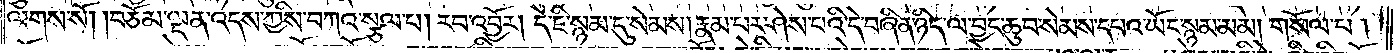ལགས་སོ། །བཅོམ་ལྡན་འདས་ཀྱིས་བཀའ་སྩལ་པ། རབ་འབྱོར། དེ་ཇི་སྙམ་དུ་སེམས། རྣམ་པར་ཤེས་པའི་དེ་བཞིན་ཉིད་ལ་བྱང་ཆུབ་སེམས་དཔའ་ཡོད་སྙམ་མམ། གསོལ་པ།
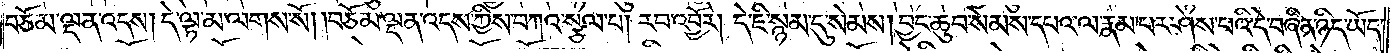བཅོམ་ལྡན་འདས། དེ་ལྟ་མ་ལགས་སོ། །བཅོམ་ལྡན་འདས་ཀྱིས་བཀའ་སྩལ་པ། རབ་འབྱོར། དེ་ཇི་སྙམ་དུ་སེམས། བྱང་ཆུབ་སེམས་དཔའ་ལ་རྣམ་པར་ཤེས་པའི་དེ་བཞིན་ཉིད་ཡོད་
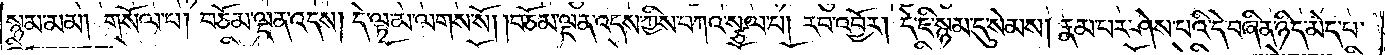སྙམ་མམ། གསོལ་པ། བཅོམ་ལྡན་འདས། དེ་ལྟ་མ་ལགས་སོ། །བཅོམ་ལྡན་འདས་ཀྱིས་བཀའ་སྩལ་པ། རབ་འབྱོར། དེ་ཇི་སྙམ་དུ་སེམས། རྣམ་པར་ཤེས་པའི་དེ་བཞིན་ཉིད་མེད་པ་
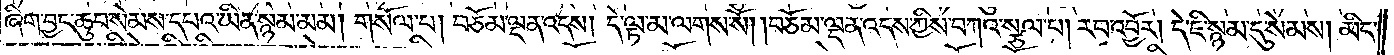ཞིག་བྱང་ཆུབ་སེམས་དཔའ་ཡིན་སྙམ་མམ། གསོལ་པ། བཅོམ་ལྡན་འདས། དེ་ལྟ་མ་ལགས་སོ། །བཅོམ་ལྡན་འདས་ཀྱིས་བཀའ་སྩལ་པ། རབ་འབྱོར། དེ་ཇི་སྙམ་དུ་སེམས། མིང་
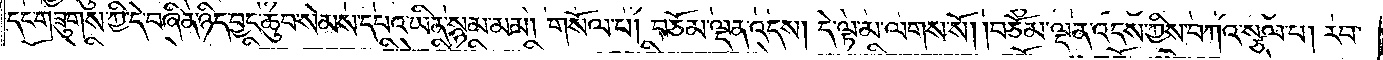དང་གཟུགས་ཀྱི་དེ་བཞིན་ཉིད་བྱང་ཆུབ་སེམས་དཔའ་ཡིན་སྙམ་མམ། གསོལ་པ། བཅོམ་ལྡན་འདས། དེ་ལྟ་མ་ལགས་སོ། །བཅོམ་ལྡན་འདས་ཀྱིས་བཀའ་སྩལ་པ། རབ་
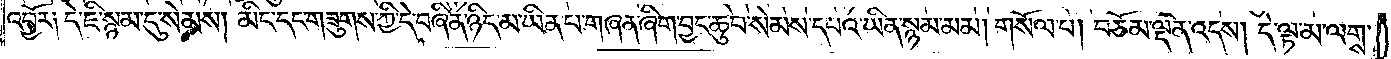འབྱོར༑ དེ་ཇི་སྙམ་དུ་སེམས། མིང་དང་གཟུགས་ཀྱི་དེ་བཞིན་ཉིད་མ་ཡིན་པ་གཞན་ཞིག་བྱང་ཆུབ་སེམས་དཔའ་ཡིན་སྙམ་མམ། གསོལ་པ། བཅོམ་ལྡན་འདས། དེ་ལྟ་མ་ལགས་
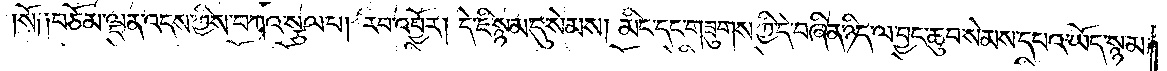སོ༑ ༑བཅོམ་ལྡན་འདས་ཀྱིས་བཀའ་སྩལ་པ། རབ་འབྱོར། དེ་ཇི་སྙམ་དུ་སེམས། མིང་དང་གཟུགས་ཀྱི་དེ་བཞིན་ཉིད་ལ་བྱང་ཆུབ་སེམས་དཔའ་ཡོད་སྙམ་
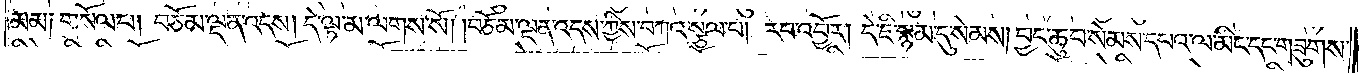མམ༑ གསོལ་པ། བཅོམ་ལྡན་འདས། དེ་ལྟ་མ་ལགས་སོ། །བཅོམ་ལྡན་འདས་ཀྱིས་བཀའ་སྩལ་པ། རབ་འབྱོར། དེ་ཇི་སྙམ་དུ་སེམས། བྱང་ཆུབ་སེམས་དཔའ་ལ་མིང་དང་གཟུགས་
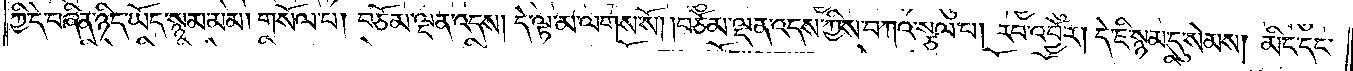ཀྱི་དེ་བཞིན་ཉིད་ཡོད་སྙམ་མམ། གསོལ་པ། བཅོམ་ལྡན་འདས། དེ་ལྟ་མ་ལགས་སོ། །བཅོམ་ལྡན་འདས་ཀྱིས་བཀའ་སྩལ་པ། རབ་འབྱོར། དེ་ཇི་སྙམ་དུ་སེམས། མིང་དང་
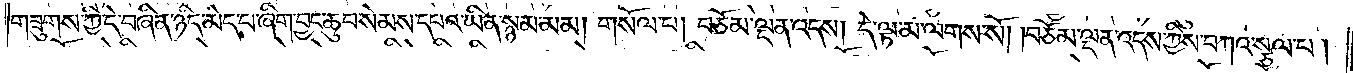གཟུགས་ཀྱི་དེ་བཞིན་ཉིད་མེད་པ་ཞིག་བྱང་ཆུབ་སེམས་དཔའ་ཡིན་སྙམ་མམ། གསོལ་པ། བཅོམ་ལྡན་འདས། དེ་ལྟ་མ་ལགས་སོ། །བཅོམ་ལྡན་འདས་ཀྱིས་བཀའ་སྩལ་པ།
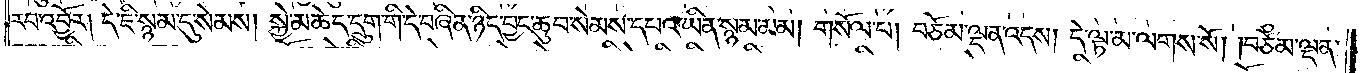རབ་འབྱོར། དེ་ཇི་སྙམ་དུ་སེམས། སྐྱེ་མཆེད་དྲུག་གི་དེ་བཞིན་ཉིད་བྱང་ཆུབ་སེམས་དཔའ་ཡིན་སྙམ་མམ། གསོལ་པ། བཅོམ་ལྡན་འདས། དེ་ལྟ་མ་ལགས་སོ། །བཅོམ་ལྡན་
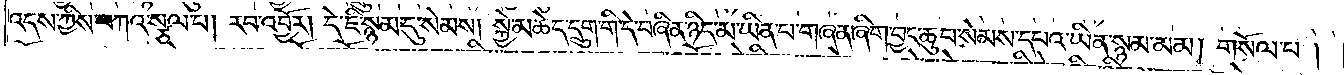འདས་ཀྱིས་བཀའ་སྩལ་པ། རབ་འབྱོར། དེ་ཇི་སྙམ་དུ་སེམས། སྐྱེ་མཆེད་དྲུག་གི་དེ་བཞིན་ཉིད་མ་ཡིན་པ་གཞན་ཞིག་བྱང་ཆུབ་སེམས་དཔའ་ཡིན་སྙམ་མམ། གསོལ་པ།
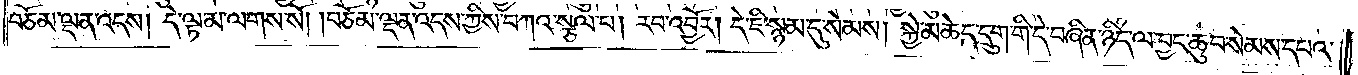བཅོམ་ལྡན་འདས། དེ་ལྟ་མ་ལགས་སོ། །བཅོམ་ལྡན་འདས་ཀྱིས་བཀའ་སྩལ་པ། རབ་འབྱོར། དེ་ཇི་སྙམ་དུ་སེམས། སྐྱེ་མཆེད་དྲུག་གི་དེ་བཞིན་ཉིད་ལ་བྱང་ཆུབ་སེམས་དཔའ་
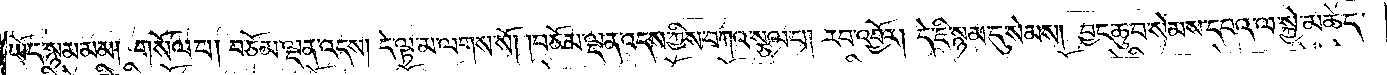ཡོད་སྙམ་མམ། གསོལ་པ། བཅོམ་ལྡན་འདས། དེ་ལྟ་མ་ལགས་སོ། །བཅོམ་ལྡན་འདས་ཀྱིས་བཀའ་སྩལ་པ། རབ་འབྱོར། དེ་ཇི་སྙམ་དུ་སེམས། བྱང་ཆུབ་སེམས་དཔའ་ལ་སྐྱེ་མཆེད་
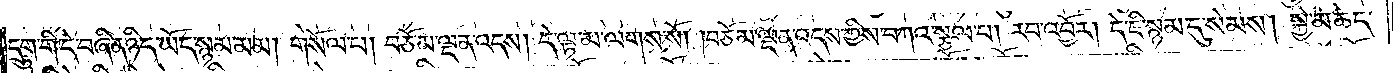དྲུག་གི་དེ་བཞིན་ཉིད་ཡོད་སྙམ་མམ། གསོལ་པ། བཅོམ་ལྡན་འདས། དེ་ལྟ་མ་ལགས་སོ། །བཅོམ་ལྡན་འདས་ཀྱིས་བཀའ་སྩལ་པ། རབ་འབྱོར། དེ་ཇི་སྙམ་དུ་སེམས། སྐྱེ་མཆེད་
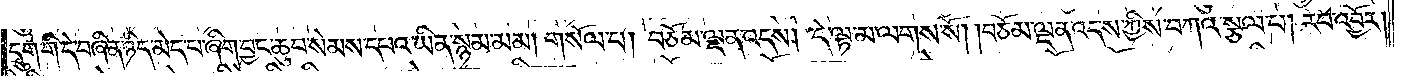དྲུག་གི་དེ་བཞིན་ཉིད་མེད་པ་ཞིག་བྱང་ཆུབ་སེམས་དཔའ་ཡིན་སྙམ་མམ། གསོལ་པ། བཅོམ་ལྡན་འདས། དེ་ལྟ་མ་ལགས་སོ། །བཅོམ་ལྡན་འདས་ཀྱིས་བཀའ་སྩལ་པ། རབ་འབྱོར།
